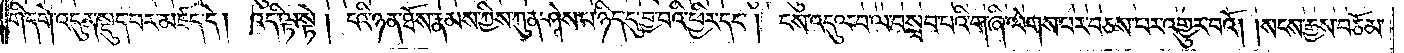གི་དགེ་འདུན་སྡུད་པར་མཛད་དེ། འདི་ལྟ་སྟེ། ངའི་ཉན་ཐོས་རྣམས་ཀྱིས་ཀུན་ཤེས་པ་ཉིད་དུ་བྱ་བའི་ཕྱིར་དང༌། ངས་འདུལ་བ་ལ་བསླབ་པའི་གཞི་ལེགས་པར་བཅས་པར་འགྱུར་བའོ། །སངས་རྒྱས་བཅོམ་
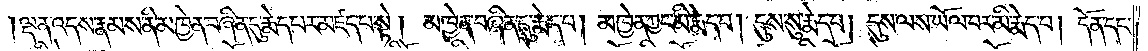ལྡན་འདས་རྣམས་ནི་མཁྱེན་བཞིན་དུ་རྨེད་པར་མཛད་པ་སྟེ། མཁྱེན་བཞིན་དུ་རྨེད་པ། མཁྱེན་ཀྱང་མི་རྨེད་པ། དུས་སུ་རྨེད་པ། དུས་ལས་ཡོལ་བར་མི་རྨེད་པ། དོན་དང་
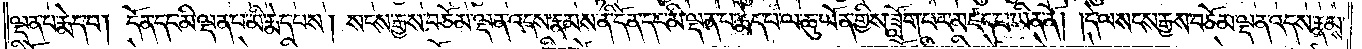ལྡན་པ་རྨེད་པ། དོན་དང་མི་ལྡན་པ་མི་རྨེད་པས། སངས་རྒྱས་བཅོམ་ལྡན་འདས་རྣམས་ནི་དོན་དང་མི་ལྡན་པ་རྨེད་པ་ལ་ཆུ་ཡོན་གྱིས་ཟློག་པར་མཛད་པ་ཡིན་ནོ། །དེ་ལ་སངས་རྒྱས་བཅོམ་ལྡན་འདས་རྣམས་
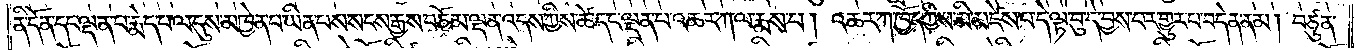ནི་དོན་དང་ལྡན་པ་རྨེད་པ་ལ་དུས་མཁྱེན་པ་ཡིན་པས་སངས་རྒྱས་བཅོམ་ལྡན་འདས་ཀྱིས་ཚེ་དང་ལྡན་པ་འཆར་ཀ་ལ་རྨས་པ། འཆར་ཀ་ཁྱོད་ཀྱིས་མི་མཛེས་པ་དེ་ལྟ་བུ་དེ་བྱས་པར་གྱུར་པ་བདེན་ནམ། བཙུན་
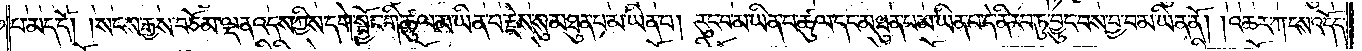པ་མད་དོ། །སངས་རྒྱས་བཅོམ་ལྡན་འདས་ཀྱིས་དགེ་སྦྱོང་གི་ཚུལ་མ་ཡིན་པ་རྗེས་སུ་མཐུན་པ་མ་ཡིན་པ། རུང་བ་མ་ཡིན་པ་ཚུལ་དང་མཐུན་པ་མ་ཡིན་པ་དེ་ནི་རབ་ཏུ་བྱུང་བས་བྱ་བ་མ་ཡིན་ནོ། །འཆར་ཀ་ངས་འདོད་
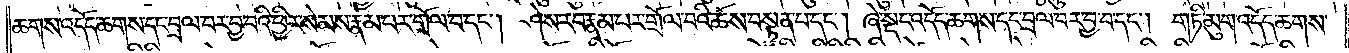ཆགས་འདོད་ཆགས་དང་བྲལ་བར་བྱ་བའི་ཕྱིར་སེམས་རྣམ་པར་གྲོལ་བ་དང༌། ཤེས་རབ་རྣམ་པར་གྲོལ་བའི་ཆོས་བསྟན་པ་དང༌། ཞེ་སྡང་འདོད་ཆགས་དང་བྲལ་བར་བྱ་བ་དང༌། གཏི་མུག་འདོད་ཆགས་
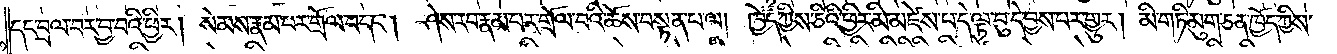དང་བྲལ་བར་བྱ་བའི་ཕྱིར། སེམས་རྣམ་པར་གྲོལ་བ་དང༌། ཤེས་རབ་རྣམ་པར་གྲོལ་བའི་ཆོས་བསྟན་པ་ལ། ཁྱོད་ཀྱིས་ཅིའི་ཕྱིར་མི་མཛེས་པ་དེ་ལྟ་བུ་དེ་བྱས་པར་གྱུར། མི་གཏི་མུག་ཅན་ཁྱོད་ཀྱིས་
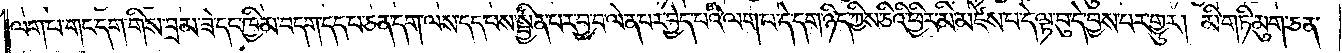ལག་པ་གང་དག་གིས་བྲམ་ཟེ་དང་ཁྱིམ་བདག་དང་པ་ཅན་དག་ལས་དད་པས་སྦྱིན་པར་བྱ་བ་ལེན་པར་བྱེད་པའི་ལག་པ་དེ་དག་ཉིད་ཀྱིས་ཅིའི་ཕྱིར་མི་མཛེས་པ་དེ་ལྟ་བུ་དེ་བྱས་པར་གྱུར། མི་གཏི་མུག་ཅན་
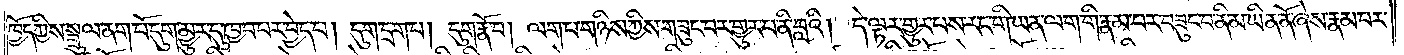ཁྱོད་ཀྱིས་སྦྲུལ་ནག་པོ་དུག་མྱུར་དུ་ཁྱབ་པར་བྱེད་པ། དུག་དྲག་པ། དུག་རྣོ་བ། ལག་པ་གཉིས་ཀྱིས་གཟུང་བར་གྱུར་པ་ནི་བླའི། དེ་ལྟར་གྱུར་པས་རང་གི་ཡན་ལག་གི་རྣམ་པར་བཟུང་བ་ནི་མ་ཡིན་ནོ་ཞེས་རྣམ་པར་
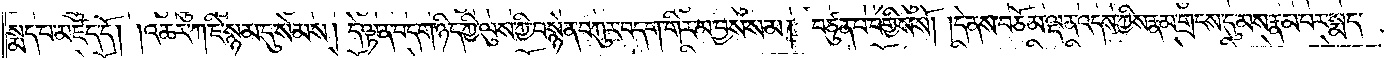སྨད་པ་མཛད་དོ། །འཆར་ཀ་ཇི་སྙམ་དུ་སེམས། དེ་ལྟ་ན་བདག་ཉིད་ཀྱི་ལུས་ཀྱི་བསྙེན་བཀུར་བདག་གིར་མ་བྱས་སམ། བཙུན་པ་བགྱིས་སོ། །དེ་ནས་བཅོམ་ལྡན་འདས་ཀྱིས་རྣམ་གྲངས་དུ་མས་རྣམ་པར་སྨད་
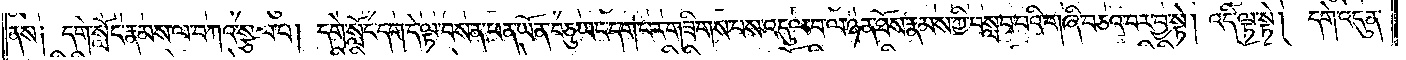ནས༑ དགེ་སློང་རྣམས་ལ་བཀའ་སྩལ་པ། དགེ་སློང་དག་དེ་ལྟ་བས་ན་ཕན་ཡོན་བཅུ་ཡང་དག་པར་གཟིགས་པས་འདུལ་བ་ལ་ཉན་ཐོས་རྣམས་ཀྱི་བསླབ་པའི་གཞི་བཅའ་བར་བྱ་སྟེ། འདི་ལྟ་སྟེ། དགེ་འདུན་
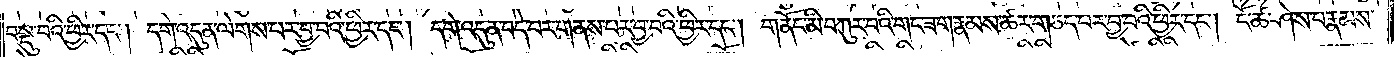བསྡུ་བའི་ཕྱིར་དང༌། དགེ་འདུན་ལེགས་པར་བྱ་བའི་ཕྱིར་དང༌། དགེ་འདུན་བདེ་བར་གནས་པར་བྱ་བའི་ཕྱིར་དང༌། གནོད་མི་བཀུར་བའི་གང་ཟག་རྣམས་ཚར་གཅད་པར་བྱ་བའི་ཕྱིར་དང༌། ངོ་ཚ་ཤེས་པ་རྣམས་
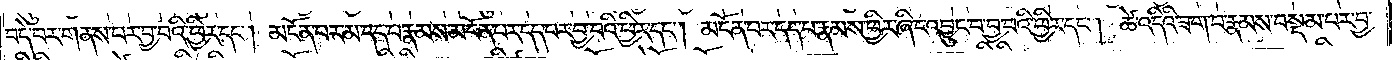བདེ་བར་གནས་པར་བྱ་བའི་ཕྱིར་དང༌། མངོན་པར་མ་དད་པར་རྣམས་མངོན་པར་དད་པར་བྱ་བའི་ཕྱིར་དང༌། མངོན་པར་དད་པ་རྣམས་ཕྱིར་ཞིང་འབྱུང་བ་བྱ་བའི་ཕྱིར་དང༌། ཚེ་འདིའི་ཟག་པ་རྣམས་བསྡམ་པར་བྱ་
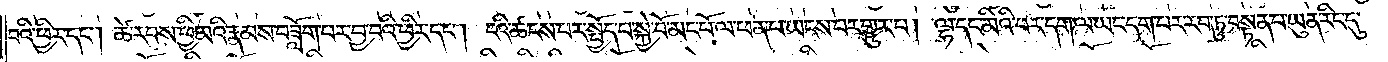བའི་ཕྱིར་དང༌། ཚེ་རབས་ཕྱི་མའི་རྣམས་བཟློག་པར་བྱ་བའི་ཕྱིར་དང༌། ངའི་ཚངས་པར་སྤྱོད་པ་སྐྱེ་བོ་མང་པོ་ལ་ཕན་པ་ཡངས་པར་གྱུར་པ། ལྷ་དང་མིའི་བར་དག་ལ་ཡང་དག་པར་རབ་ཏུ་བསྟན་པ་ཡུན་རིང་དུ་
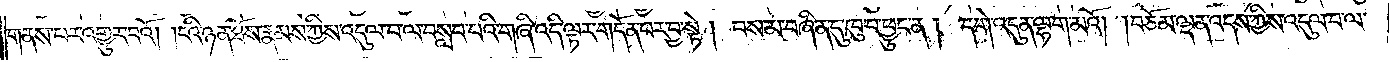གནས་པར་འགྱུར་བའོ། །ངའི་ཉན་ཐོས་རྣམས་ཀྱིས་འདུལ་བ་ལ་བསླབ་པའི་གཞི་འདི་ལྟར་གདོན་པར་བྱ་སྟེ། བསམ་བཞིན་དུ་ཁུ་བ་ཕྱུང་ན། དགེ་འདུན་ལྷག་མའོ། །བཅོམ་ལྡན་འདས་ཀྱིས་འདུལ་བ་ལ་
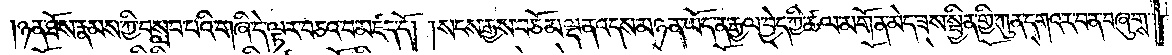ཉན་ཐོས་རྣམས་ཀྱི་བསླབ་པའི་གཞི་དེ་ལྟར་བཅའ་བ་མཛད་དོ། །སངས་རྒྱས་བཅོམ་ལྡན་འདས་མཉན་ཡོད་ན་རྒྱལ་བྱེད་ཀྱི་ཚལ་མགོན་མེད་ཟས་སྦྱིན་གྱི་ཀུན་དགའ་ར་བ་ན་བཞུགས་
